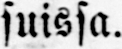suissa.
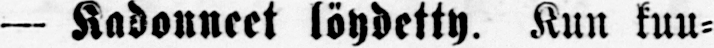— Kadonneet löydetty. Kun kuu-
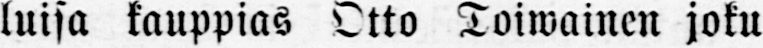luisa kauppias Otto Toiwainen joku
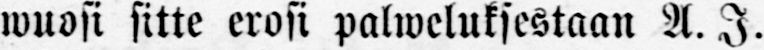wuosi sitte erosi palweluksestaan A. I.
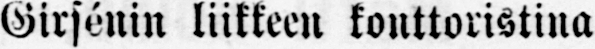Girsénin liikkeen konttoristina Jywäs-
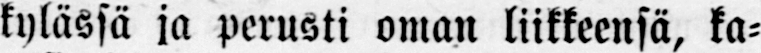kylässä ja perusti oman liikkeensä, ka-
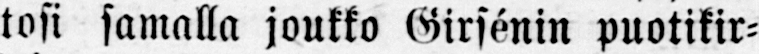tosi samalla joukko Girsénin puotikir-
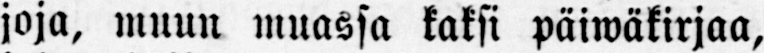joja, muun muassa kaksi päiwäkirjaa,
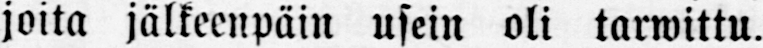joita jälkeenpäin usein oli tarwittu.
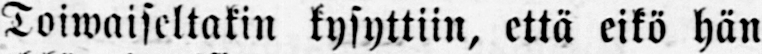Toiwaiseltakin kysyttiin, että eikö hän
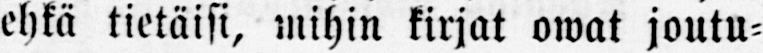ehkä tietäisi, mihin kirjat owat joutu-
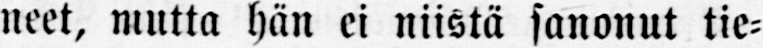neet, mutta hän ei niistä sanonut tie-
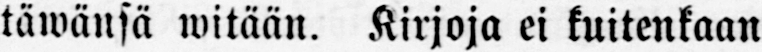täwänsä witään. Kirjoja ei kuitenkaan
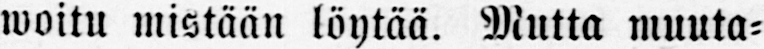woitu mistään löytää. Mutta muuta-
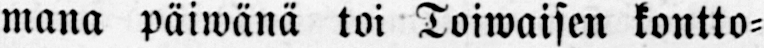mana päiwänä toi Toiwaisen kontto-
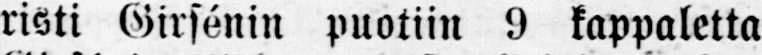risti Girsénin puotiin 9 kappaletta
